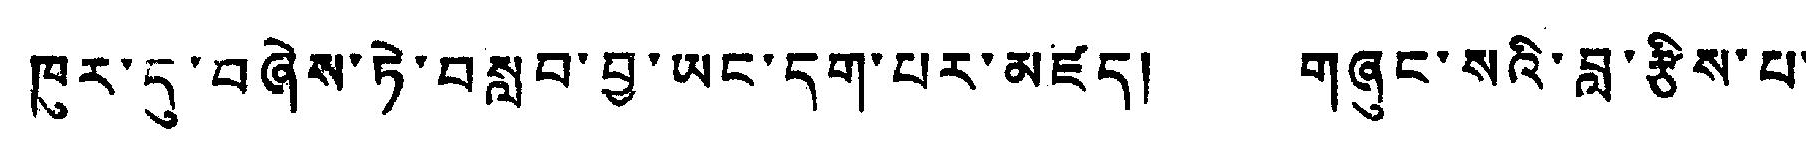ཁུར་དུ་བཞེས་ཏེ་བསླབ་བྱ་ཡང་དག་པར་མཛད། གཞུང་སའི་བླ་རྩིས་པ་
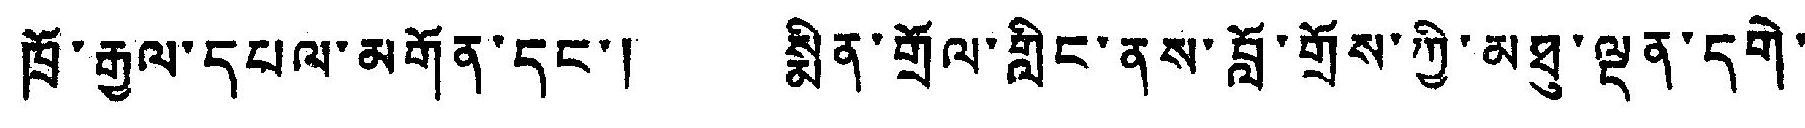ཁོ་རྒྱལ་དཔལ་མགོན་དང་། སྨིན་གྲོལ་གླིང་ནས་བློ་གྲོས་ཀྱི་མཐུ་ལྡན་དགེ་
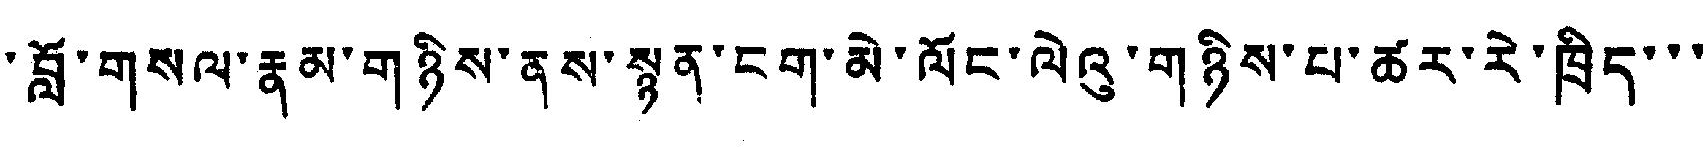སློང་བློ་གསལ་རྣམ་གཉིས་ནས་སྙན་ངག་མེ་ལོང་ལེའུ་གཉིས་པ་ཚར་རེ་ཁྲིད་་་
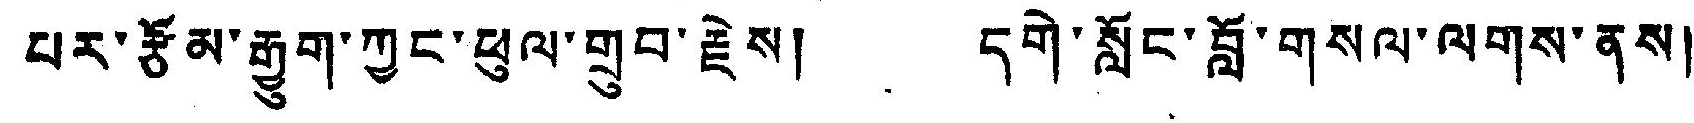པར་རྩོམ་རྒྱུག་ཀྱང་ཕུལ་གྲུབ་རྗེས། དགེསློང་བློ་གསལ་ལགས་ནས།
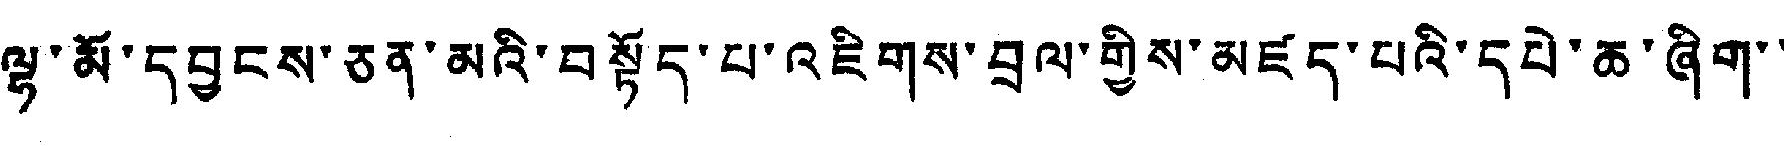ལྷ་མོ་དབྱངས་ཅན་མའི་བསྟོད་པ་འཇིགས་བྲལ་གྱིས་མཛད་པའི་དཔེ་ཆ་ཞིག་་
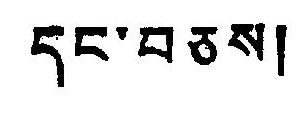དང་བཅས།
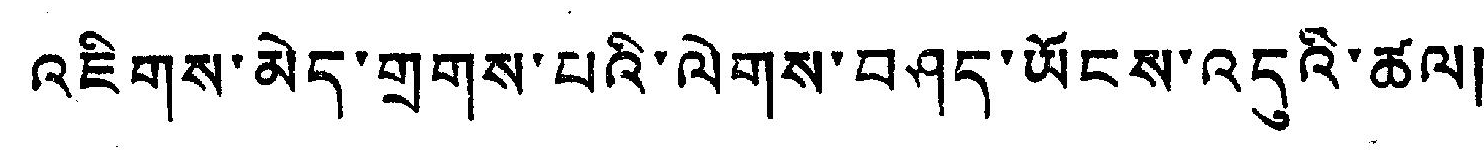འཇིགས་མེད་གྲགས་པའི་ལེགས་བཤད་ཡོངས་འདུའི་ཚལ།
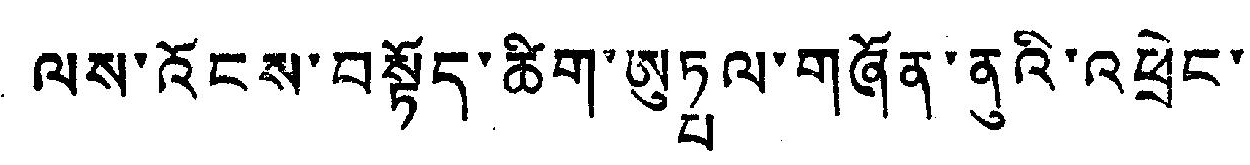ལས་འོངས་བསྟོད་ཚིག་ཨུཏྤལ་གཞོན་ནུའི་འཕྲེང་།
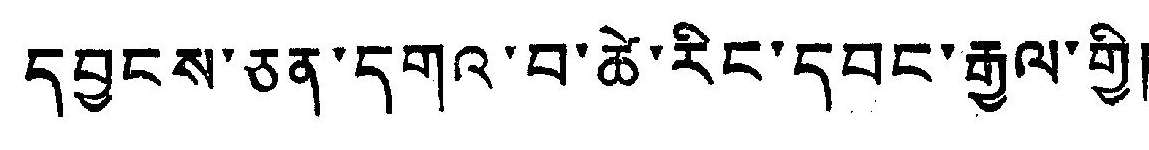དབྱངས་ཅན་དགའ་བ་ཚེ་རིང་དབང་རྒྱལ་གྱི།
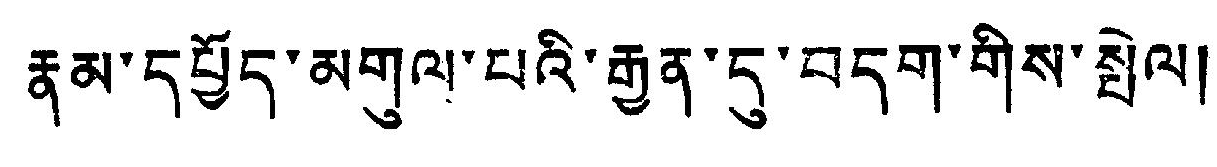རྣམ་དཔྱོད་མགུལ་པའི་རྒྱུན་དུ་བདག་གིས་སྤེལ།
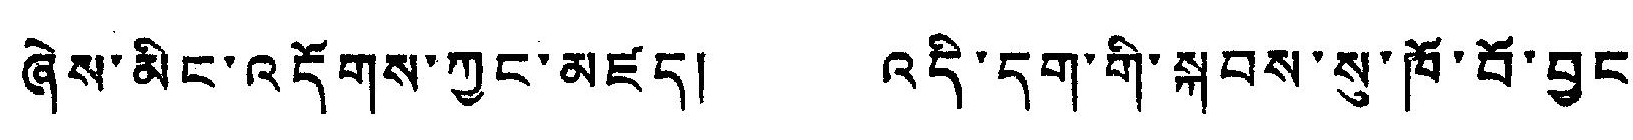ཞེས་མིང་འདོགས་ཀྱང་མཛད། འདི་དག་གི་སྐབས་སུ་ཁོ་བོ་བྱང་
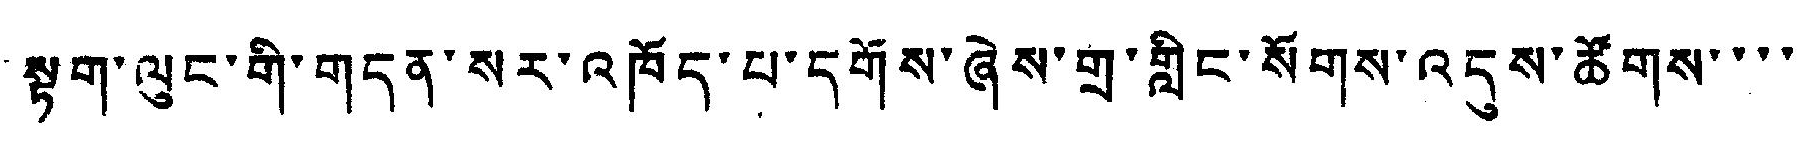སྟག་ལུང་གི་གདན་སར་འཁོད་པ་དགོས་ཞེས་གྲ་གླིང་སོགས་འདུས་ཚོགས་་་་
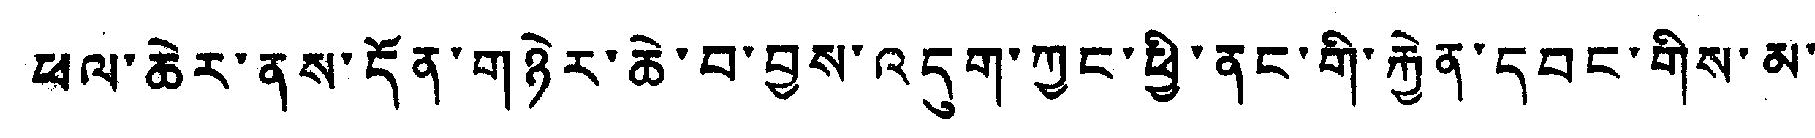ཕལ་ཆེར་ནས་དོན་གཉེར་ཆེ་བ་བྱས་འདུག་ཀྱང་ཕྱི་ནང་གི་རྐྱེན་དབང་གིས་མ་་
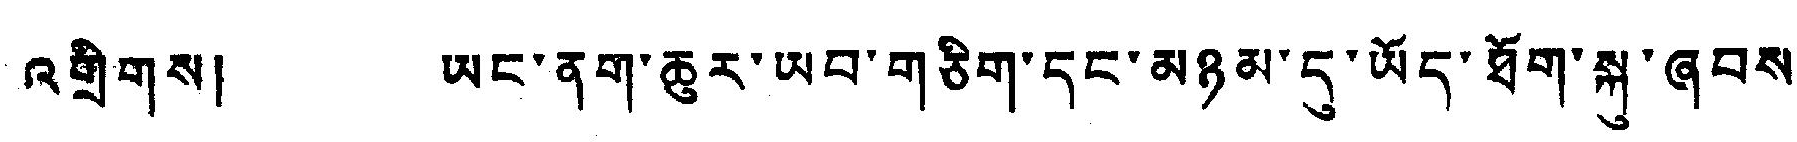འགྲིགས། ཡང་ནག་ཆུར་ཡབ་གཅིག་དང་མཉམ་དུ་ཡོད་ཐོག་སྐུ་ཞབས་
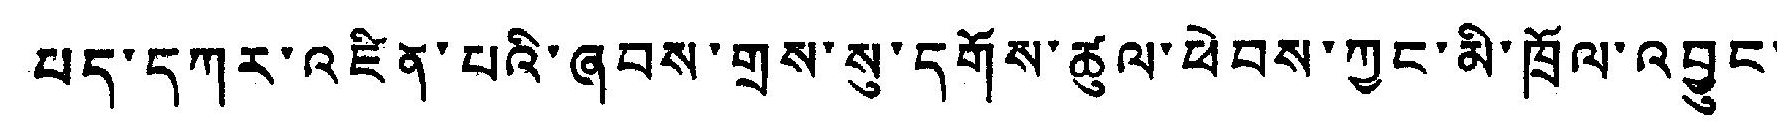པད་དཀར་འཛིན་པའི་ཞབས་གྲས་སུ་དགོས་ཚུལ་ཕེབས་ཀྱང་མི་ཁྲོལ་འབྱུང་་
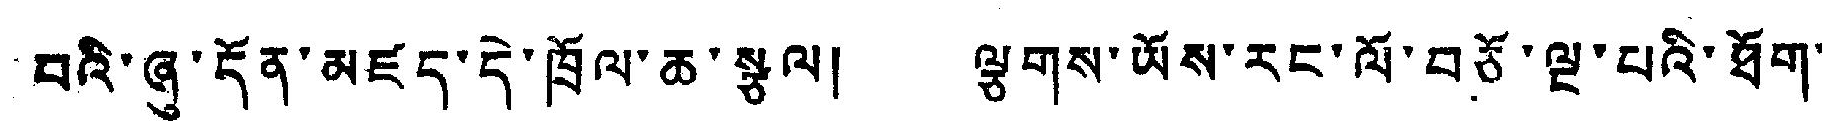བའི་ཞུ་དོན་མཛད་དེ་ཁྲོལ་ཆ་སྩལ། ལྕགས་ཡོས་རང་ལོ་བཅོ་ལྔ་པའི་ཐོག་་
